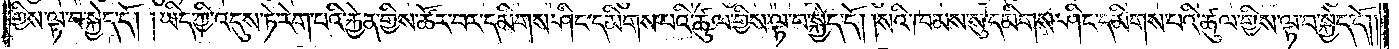གྱིས་ལྟ་བ་སྐྱེད་དོ། །ཡིད་ཀྱི་འདུས་ཏེ་རེག་པའི་རྐྱེན་གྱིས་ཚོར་བར་དམིགས་ཤིང་དམིགས་པའི་ཚུལ་གྱིས་ལྟ་བ་སྐྱེད་དོ། །སའི་ཁམས་སུ་དམིགས་ཤིང་དམིགས་པའི་ཚུལ་གྱིས་ལྟ་བ་སྐྱེད་དོ། །
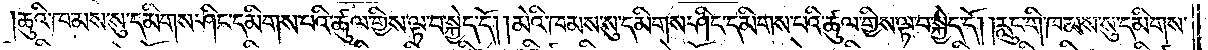ཆུའི་ཁམས་སུ་དམིགས་ཤིང་དམིགས་པའི་ཚུལ་གྱིས་ལྟ་བ་སྐྱེད་དོ། །མེའི་ཁམས་སུ་དམིགས་ཤིང་དམིགས་པའི་ཚུལ་གྱིས་ལྟ་བ་སྐྱེད་དོ། །རླུང་གི་ཁམས་སུ་དམིགས་
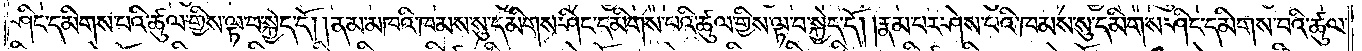ཤིང་དམིགས་པའི་ཚུལ་གྱིས་ལྟ་བ་སྐྱེད་དོ། །ནམ་མཁའི་ཁམས་སུ་དམིགས་ཤིང་དམིགས་པའི་ཚུལ་གྱིས་ལྟ་བ་སྐྱེད་དོ། །རྣམ་པར་ཤེས་པའི་ཁམས་སུ་དམིགས་ཤིང་དམིགས་པའི་ཚུལ་
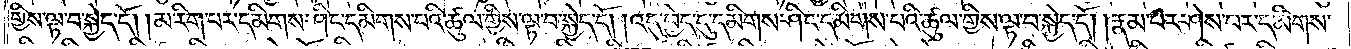གྱིས་ལྟ་བ་སྐྱེད་དོ། །མ་རིག་པར་དམིགས་ཤིང་དམིགས་པའི་ཚུལ་གྱིས་ལྟ་བ་སྐྱེད་དོ། །འདུ་བྱེད་དུ་དམིགས་ཤིང་དམིགས་པའི་ཚུལ་གྱིས་ལྟ་བ་སྐྱེད་དོ། །རྣམ་པར་ཤེས་པར་དམིགས་
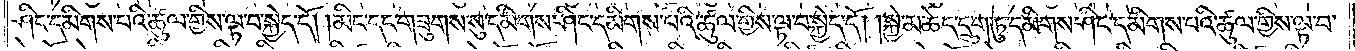ཤིང་དམིགས་པའི་ཚུལ་གྱིས་ལྟ་བ་སྐྱེད་དོ། །མིང་དང་གཟུགས་སུ་དམིགས་ཤིང་དམིགས་པའི་ཚུལ་གྱིས་ལྟ་བ་སྐྱེད་དོ། །སྐྱེ་མཆེད་དྲུག་ཏུ་དམིགས་ཤིང་དམིགས་པའི་ཚུལ་གྱིས་ལྟ་བ་
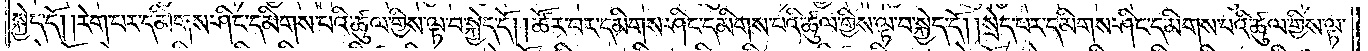སྐྱེད་དོ། །རེག་པར་དམིགས་ཤིང་དམིགས་པའི་ཚུལ་གྱིས་ལྟ་བ་སྐྱེད་དོ། །ཚོར་བར་དམིགས་ཤིང་དམིགས་པའི་ཚུལ་གྱིས་ལྟ་བ་སྐྱེད་དོ། །སྲེད་པར་དམིགས་ཤིང་དམིགས་པའི་ཚུལ་གྱིས་ལྟ་
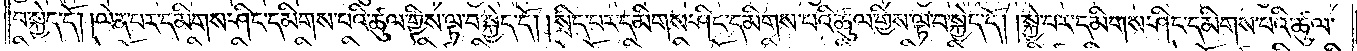བ་སྐྱེད་དོ། །ལེན་པར་དམིགས་ཤིང་དམིགས་པའི་ཚུལ་གྱིས་ལྟ་བ་སྐྱེད་དོ། །སྲིད་པར་དམིགས་ཤིང་དམིགས་པའི་ཚུལ་གྱིས་ལྟ་བ་སྐྱེད་དོ། །སྐྱེ་བར་དམིགས་ཤིང་དམིགས་པའི་ཚུལ་
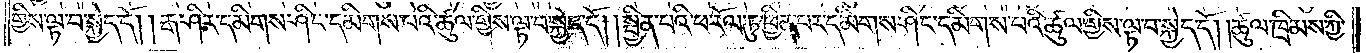གྱིས་ལྟ་བ་སྐྱེད་དོ། །རྒ་ཤིར་དམིགས་ཤིང་དམིགས་པའི་ཚུལ་གྱིས་ལྟ་བ་སྐྱེད་དོ། །སྦྱིན་པའི་ཕ་རོལ་ཏུ་ཕྱིན་པར་དམིགས་ཤིང་དམིགས་པའི་ཚུལ་གྱིས་ལྟ་བ་སྐྱེད་དོ། །ཚུལ་ཁྲིམས་ཀྱི་
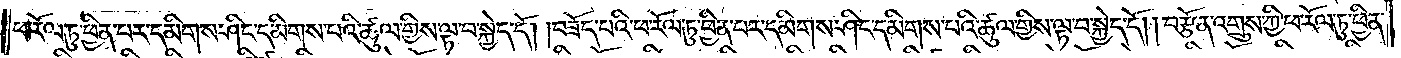ཕ་རོལ་ཏུ་ཕྱིན་པར་དམིགས་ཤིང་དམིགས་པའི་ཚུལ་གྱིས་ལྟ་བ་སྐྱེད་དོ། །བཟོད་པའི་ཕ་རོལ་ཏུ་ཕྱིན་པར་དམིགས་ཤིང་དམིགས་པའི་ཚུལ་གྱིས་ལྟ་བ་སྐྱེད་དོ། །བརྩོན་འགྲུས་ཀྱི་ཕ་རོལ་ཏུ་ཕྱིན་
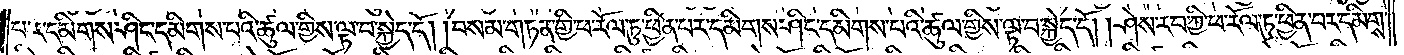པར་དམིགས་ཤིང་དམིགས་པའི་ཚུལ་གྱིས་ལྟ་བ་སྐྱེད་དོ། །བསམ་གཏན་གྱི་ཕ་རོལ་ཏུ་ཕྱིན་པར་དམིགས་ཤིང་དམིགས་པའི་ཚུལ་གྱིས་ལྟ་བ་སྐྱེད་དོ། །ཤེས་རབ་ཀྱི་ཕ་རོལ་ཏུ་ཕྱིན་པར་དམིགས་
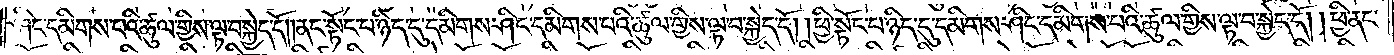ཤིང་དམིགས་པའི་ཚུལ་གྱིས་ལྟ་བ་སྐྱེད་དོ། །ནང་སྟོང་པ་ཉིད་དུ་དམིགས་ཤིང་དམིགས་པའི་ཚུལ་གྱིས་ལྟ་བ་སྐྱེད་དོ། །ཕྱི་སྟོང་པ་ཉིད་དུ་དམིགས་ཤིང་དམིགས་པའི་ཚུལ་གྱིས་ལྟ་བ་སྐྱེད་དོ། །ཕྱི་ནང་
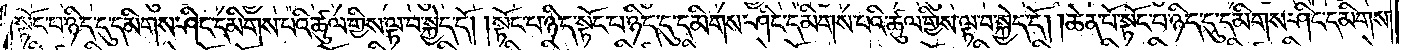སྟོང་པ་ཉིད་དུ་དམིགས་ཤིང་དམིགས་པའི་ཚུལ་གྱིས་ལྟ་བ་སྐྱེད་དོ། །སྟོང་པ་ཉིད་སྟོང་པ་ཉིད་དུ་དམིགས་ཤིང་དམིགས་པའི་ཚུལ་གྱིས་ལྟ་བ་སྐྱེད་དོ། །ཆེན་པོ་སྟོང་པ་ཉིད་དུ་དམིགས་ཤིང་དམིགས་
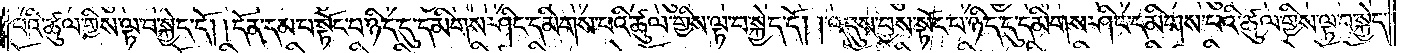པའི་ཚུལ་གྱིས་ལྟ་བ་སྐྱེད་དོ། །དོན་དམ་པ་སྟོང་པ་ཉིད་དུ་དམིགས་ཤིང་དམིགས་པའི་ཚུལ་གྱིས་ལྟ་བ་སྐྱེད་དོ། །འདུས་བྱས་སྟོང་པ་ཉིད་དུ་དམིགས་ཤིང་དམིགས་པའི་ཚུལ་གྱིས་ལྟ་བ་སྐྱེད་
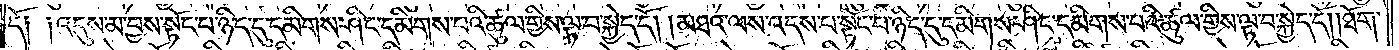དོ༑ ༑འདུས་མ་བྱས་སྟོང་པ་ཉིད་དུ་དམིགས་ཤིང་དམིགས་པའི་ཚུལ་གྱིས་ལྟ་བ་སྐྱེད་དོ། །མཐའ་ལས་འདས་པ་སྟོང་པ་ཉིད་དུ་དམིགས་ཤིང་དམིགས་པའི་ཚུལ་གྱིས་ལྟ་བ་སྐྱེད་དོ། །ཐོག་
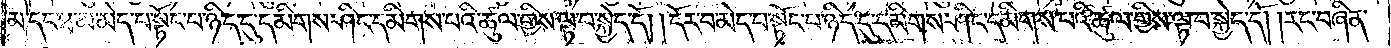མ་དང་ཐ་མ་མེད་པ་སྟོང་པ་ཉིད་དུ་དམིགས་ཤིང་དམིགས་པའི་ཚུལ་གྱིས་ལྟ་བ་སྐྱེད་དོ། །དོར་བ་མེད་པ་སྟོང་པ་ཉིད་དུ་དམིགས་ཤིང་དམིགས་པའི་ཚུལ་གྱིས་ལྟ་བ་སྐྱེད་དོ། །རང་བཞིན་
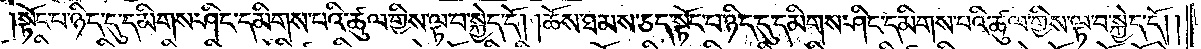སྟོང་པ་ཉིད་དུ་དམིགས་ཤིང་དམིགས་པའི་ཚུལ་གྱིས་ལྟ་བ་སྐྱེད་དོ། །ཆོས་ཐམས་ཅད་སྟོང་པ་ཉིད་དུ་དམིགས་ཤིང་དམིགས་པའི་ཚུལ་གྱིས་ལྟ་བ་སྐྱེད་དོ། །
